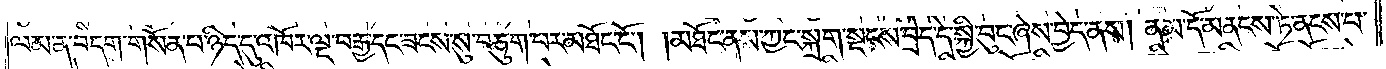ལམ་ན་བདག་གསོན་པ་ཉིད་དུ་འཁོར་ལྔ་བརྒྱ་དང་ཟངས་སུ་བཅུག་པར་མཐོང་ངོ༌། །མཐོང་ནས་ཀྱང་སྐྲག་སྡངས་བྲེད་དེ་སྐྱི་བུང་ཞེས་བྱེད་ནས། ནམ་དོ་མནངས་ཏེ་ནངས་པ་
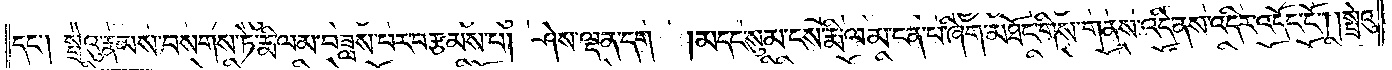དང༌། སྤྲེའུ་རྣམས་བསགས་ཏེ་རྨི་ལམ་བཟླས་པར་བརྩམས་པ། ཤེས་ལྡན་དག །མདང་སུམ་ངས་རྨི་ལམ་ངན་པ་ཞིག་མཐོང་གིས་གནས་འདི་ནས་འདིར་འདོང་ངོ༌། །སྤྲེའུ་
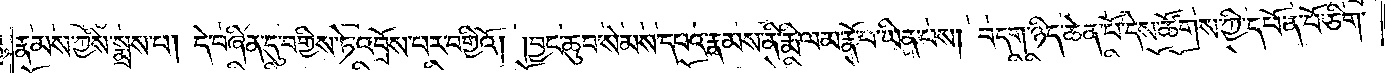རྣམས་ཀྱིས་སྨྲས་པ། དེ་བཞིན་དུ་བགྱིས་ཏེ་འབྲོས་པར་བགྱིའོ། །བྱང་ཆུབ་སེམས་དཔའ་རྣམས་ནི་རྨི་ལམ་རྣོ་བ་ཡིན་པས། བདག་ཉིད་ཆེན་པོ་དེས་ཚོགས་ཀྱི་དཔོན་པོ་ཅིག་
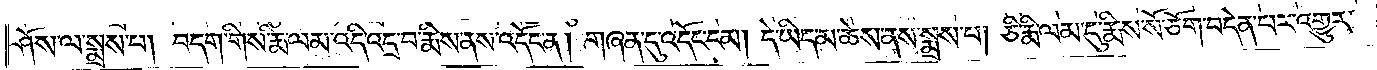ཤོས་ལ་སྨྲས་པ། བདག་གིས་རྨི་ལམ་འདི་འདྲ་བ་རྨིས་ནས་འདོང་ན། གཞན་དུ་འདོང་ངམ། དེ་ཡི་དམ་ཆེས་ནས་སྨྲས་པ། ཅི་རྨི་ལམ་དུ་རྨིས་སོ་ཅོག་བདེན་པར་འགྱུར་
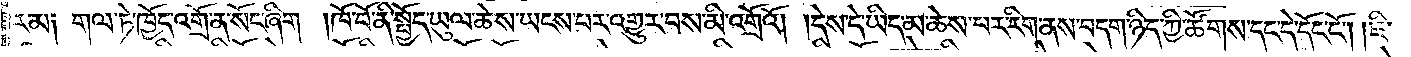རམ༑ གལ་ཏེ་ཁྱོད་འགྲོ་ན་སོང་ཞིག །ཁོ་བོ་ནི་སྤྱོད་ཡུལ་ཆེས་ཡངས་པར་འགྱུར་བས་མི་འགྲོའོ། །དེས་དེ་ཡིད་མ་ཆེས་བར་རིག་ནས་བདག་ཉིད་ཀྱི་ཚོགས་དང་དེ་དོང་ངོ༌། །ཇི་
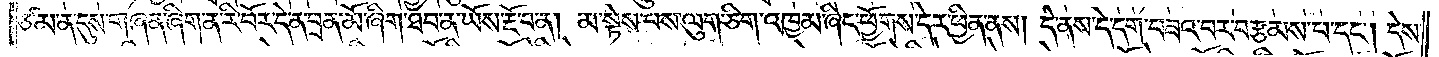ཙམ་ན་དུས་གཞན་ཞིག་ན་རི་བོར་དེ་ན་བྲན་མོ་ཞིག་ཐབ་ན་ཡོས་རྔོ་བ་ན། མ་སྟེས་པས་ལུག་ཅིག་འཁྱམ་ཞིང་ཕྱོགས་དེར་ཕྱིན་ནས། དེ་ནས་དེ་དག་བཟའ་བར་བརྩམས་པ་དང༌། དེས་
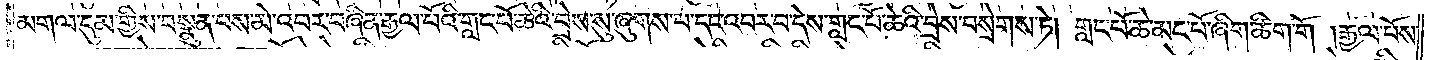མགལ་དུམ་གྱིས་བསྣུན་པས་མེ་འབར་བཞིན་རྒྱལ་པོའི་གླང་པོ་ཆེའི་བྲེས་སུ་ཞུགས་པ་དང་འབར་བ་དེས་གླང་པོ་ཆེའི་བྲེས་བསྲེགས་ཏེ། གླང་པོ་ཆེ་མང་པོ་ཞིག་ཚིག་གོ །རྒྱལ་པོས་
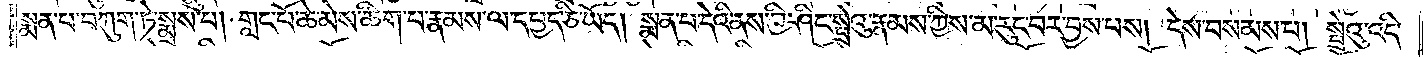སྨན་པ་བཀུག་ཏེ་སྨྲས་པ། གླང་པོ་ཆེ་མེས་ཚིག་པ་རྣམས་ལ་དཔྱད་ཅི་ཡོད། སྨན་པ་དེའི་ནས་ཀྱི་ཤིང་སྤྲེའུ་རྣམས་ཀྱིས་མ་རུང་བར་བྱས་པས། དེས་བསམས་པ། སྤྲེའུ་འདི་
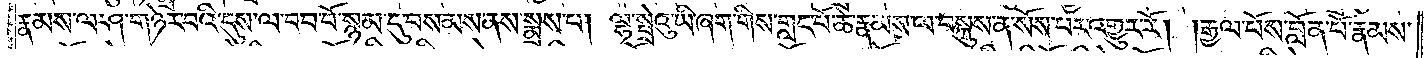རྣམས་ལ་ཤ་གཉེར་བའི་དུས་ལ་བབ་བོ་སྙམ་དུ་བསམས་ནས་སྨྲས་པ། ལྷ་སྤྲེའུ་ཡི་ཞག་གིས་གླང་པོ་ཆེ་རྣམས་ལ་བསྐུས་ན་སོས་པར་འགྱུར་རོ། །རྒྱལ་པོས་བློན་པོ་རྣམས་
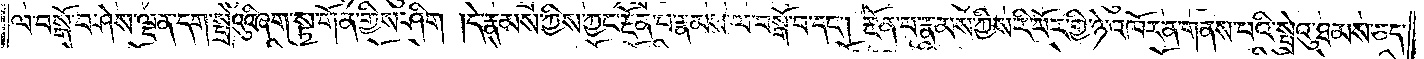ལ་བསྒོ་བ་ཤེས་ལྡན་དག་སྤྲེའུའི་ཞག་སྟ་གོན་གྱིས་ཤིག །དེ་རྣམས་ཀྱིས་ཀྱང་རྔོན་པ་རྣམས་ལ་བསྒོ་བ་དང༌། རྔོན་པ་རྣམས་ཀྱིས་རི་བོར་གྱི་ཉེ་འཁོར་ན་གནས་པའི་སྤྲེའུ་ཐམས་ཅད་
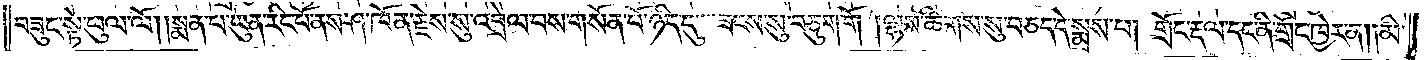བཟུང་སྟེ་ཕུལ་ལོ། །སྨན་པ་ཡུན་རིང་པོ་ནས་ཤ་ཁོན་རྗེས་སུ་འབྲེལ་བས་གསོན་པོ་ཉིད་དུ་ཟངས་སུ་བཅུག་གོ །ལྷས་ཚིགས་སུ་བཅད་དེ་སྨྲས་པ། གྲོང་རྡལ་དང་ནི་གྲོང་ཁྱེར་ན། །མི་
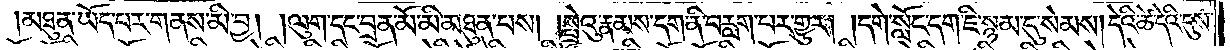མཐུན་ཡོད་པར་གནས་མི་བྱ། །ལུག་དང་བྲན་མོ་མི་མཐུན་པས། །སྤྲེའུ་རྣམས་དག་ནི་བརླག་པར་གྱུར། །དགེ་སློང་དག་ཇི་སྙམ་དུ་སེམས། དེའི་ཚེ་དེའི་དུས་
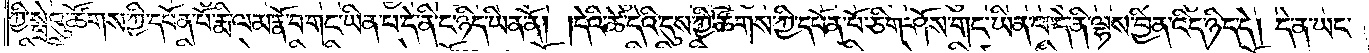ཀྱི་སྤྲེའུ་ཚོགས་ཀྱི་དཔོན་པོ་རྨི་ལམ་རྣོ་བ་གང་ཡིན་པ་དེ་ནི་ང་ཉིད་ཡིན་ནོ། །དེའི་ཚེ་དེའི་དུས་ཀྱི་ཚོགས་ཀྱི་དཔོན་པོ་ཅིག་ཤོས་གང་ཡིན་པ་དེ་ནི་ལྷས་བྱིན་འདི་ཉིད་དེ། དེ་ན་ཡང་
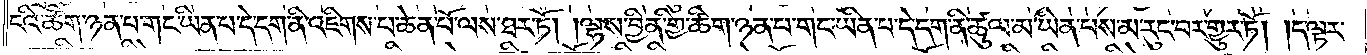ངའི་ཚིག་ཉན་པ་གང་ཡིན་པ་དེ་དག་ནི་འཇིགས་པ་ཆེན་པོ་ལས་ཐར་ཏོ། །ལྷས་བྱིན་གྱི་ཚིག་ཉན་པ་གང་ཡིན་པ་དེ་དག་ནི་ཚུལ་མ་ཡིན་པས་མ་རུང་བར་གྱུར་ཏོ། །ད་ལྟར་
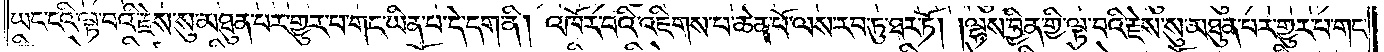ཡང་ངའི་ལྟ་བའི་རྗེས་སུ་མཐུན་པར་གྱུར་པ་གང་ཡིན་པ་དེ་དག་ནི། འཁོར་བའི་འཇིགས་པ་ཆེན་པོ་ལས་རབ་ཏུ་ཐར་ཏོ། །ལྷས་བྱིན་གྱི་ལྟ་བའི་རྗེས་སུ་མཐུན་པར་གྱུར་བ་གང་
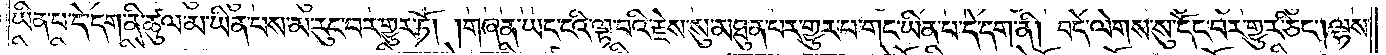ཡིན་པ་དེ་དག་ནི་ཚུལ་མ་ཡིན་པས་མ་རུང་བར་གྱུར་ཏོ། །གཞན་ཡང་ངའི་ལྟ་བའི་རྗེས་སུ་མཐུན་པར་གྱུར་པ་གང་ཡིན་པ་དེ་དག་ནི། བདེ་ལེགས་སུ་དོང་བར་གྱུར་ཅིང༌། ལྷས་
